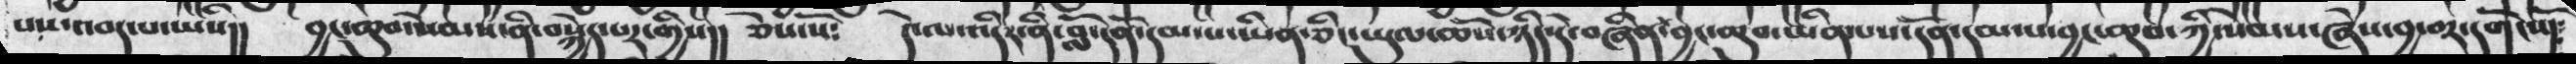པས་འབད་པ་ཡིས།།   བྱང་ཆུབ་སེམས་ནི་བསྐྱེད་པར་གྱིས།།   ཅེས་སོ  དེ་ལ་འདིར་ནི་བློ་དོན་དམ་པ་ཡིན་ཅིང་ཡུལ་ཆོས་ཉིད་དེ་བཞིན་བྱང་ཆུབ་མིན་པས་དོན་དམ་པ་བྱང་ཆུབ་ཀྱི་སེམས་ཞེས་བྱ་བར་དགོངསོ།༴
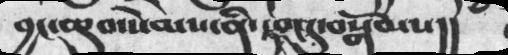བྱང་ཆུབ་སེམས་ནི་རྟག་དུ་བསྒོམས།།
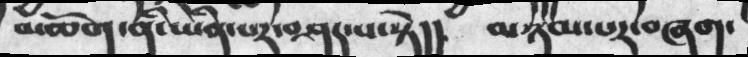མཆོག་ནི་ཡིན་པར་བཤད་པ་སྟེ།།  མཉམ་པར་བཞག་
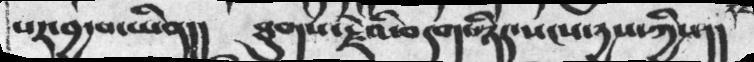པར་བྱ་བ་ཡིན།།  ཐུགས་རྗེའི་བདག་ཉིད་སངས་དྱས་ཀྱིས།།
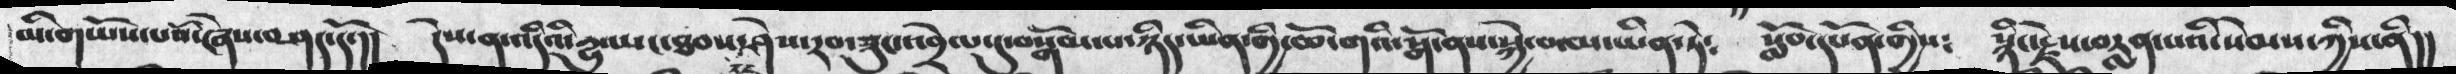མི་གཡོས་པའོ་ཞེས་བཤས་སོ་།།  དེས་ན་འདིདི་རྱུ་ཡང་ཐབས་ཤེས་རབ་ཟུང་ཕྲེལ་དུ་བསྒོམ་པ་ཉིད་ཡིན་གྱི་ཆོ་གའི་སྒོ་ནས་སྐྱེ་བ་མ་ཡིན་ཏེ༴   སློབ་དཔོན་གྱིས༴  སྙིང་རྗེས་བརླན་པའི་སེམས་ཀྱིས་ནི།།
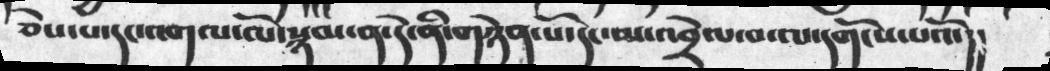ཅེས་པ་དང་འགལ་ལོ་སྙམ་ན་དེ་ནི་གཉེན་པོ་དང་མ་འབྲེལ་བ་ལ་དགོངས་པའོ།།
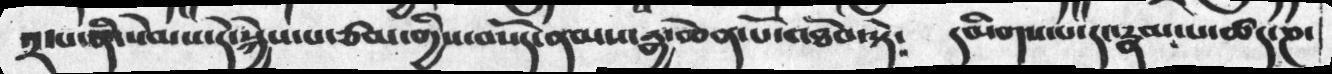༢་པ་ནི་སེམས་དེ་སྐྱེས་པ་ཙམ་གྱིས་བསོད་ནམས་རྒྱ་ཆེན་པོ་འཐོབ་སྟ༴   དམིགས་པ་དང་རྣམ་པ་ཚང་ཎ་
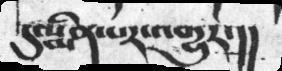དུ་སྨིན་པར་འགྱུར་།།
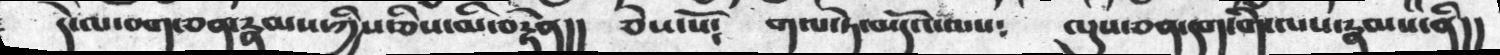དེ་ལ་བག་ཅན་རྣམས་ཀྱིས་ཅིས་མི་བསྟེན།།  ཅེས་སོ༴  གལ་ཏེ་མདོའ་ལས༴  ལུས་ཅན་དག་གི་ལས་རྣམས་ནི།།
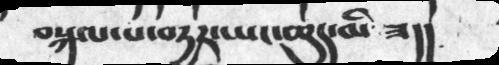བསྐལ་བ་བདྱར་ཡང་ཆུད་མི་ཟ།།
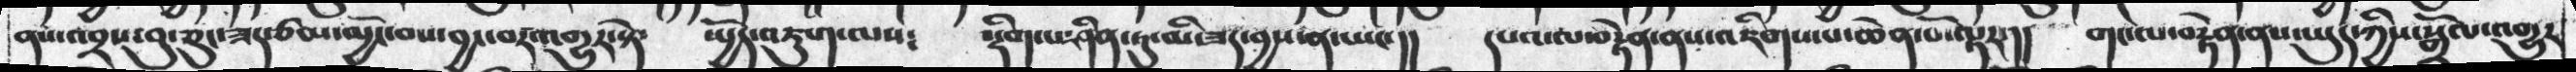ནས་འབྲས་བུ་ཅུང་ཟད་ཙམ་མྱོང་བས་བྱང་བར་འགྱུར་སྟེ་   ཡྱོད་འཇུག་ལས༴  སྡིག་པ་ཤིན་ཏུ་མི་ཟད་བྱས་ན་ཡང་།།  དཔའ་ལ་བརྟེན་ནས་འཇིགས་པ་ཆེན་པོ་ལྟར་།།  གང་ལ་བརྟེན་ནས་ཡུད་ཀྱིས་སྒྲོལ་འགྱུར
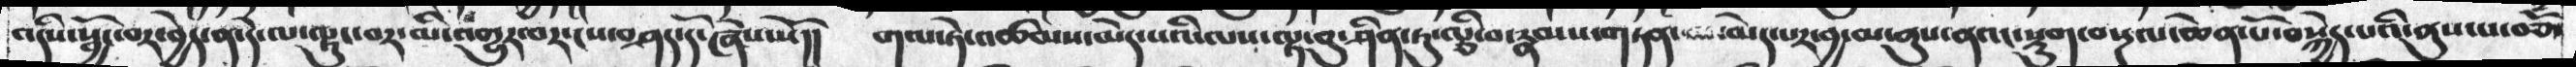འདིས་སྦྱོང་བར་བྱེད་ན་དེ་ན་དེ་ལ་ལྟུང་བར་མི་འགྱུར་བར་ངས་བཤད་དོ་ཞེས་སོ།།   གལ་ཏེ་འཚམས་མེད་པའི་ལས་ལྟ་བུ་ཤིན་ཏུ་ལྕི་བ་རྣམས་གཏན་མེད་བྱ་མ་ནུས་ནའང་སྡུག་བསྔལ་ཆེན་པོ་བསྐྱེད་པའི་ནུས་པ་བཅོམ
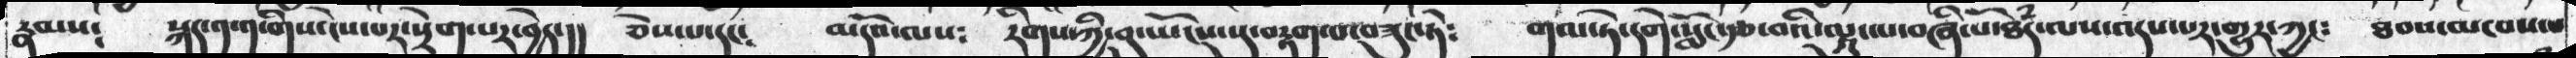རྣམས༴   སྐད་༡་༡་གིས་ངེས་པར་སྲེག་པར་བྱེད་།།   ཅེས་པ་དང༴  མདོའ་ལས༴   རིགས་ཀྱི་བུ་ཡོངས་སུ་བརྟག་པ་བཟུང་ཏེ༴  གལ་ཏེ་དགེ་སློང་རྩ་བའི་ལྟུང་བ་བཞི་པོ་ཐཾད་ལས་འདས་པར་གྱུར་ཀྱང༴  ཐབས་མཁས་པ
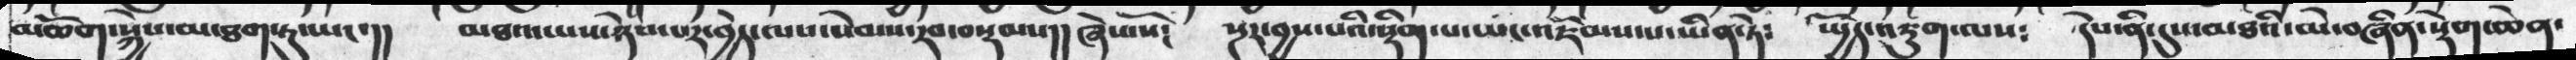མཆོག་སྐྱེས་མ་ཐག་ཏུ་ཡང་།།  མཐའ་ཡས་ཉེས་པར་བྱེད་བྱེད་ལས་སེམས་རབ་བསྡམས།། ཞེས་སོ༴  སྔར་བྱས་པའི་སྡིག་པ་ཡང་འཇོམས་པ་ཡིན་ཏེ༴  ཡྱོད་འཇུག་ལས༴    དེས་ནི་དུས་མཐའི་མེ་བཞིན་སྟེག་ཆེན་
